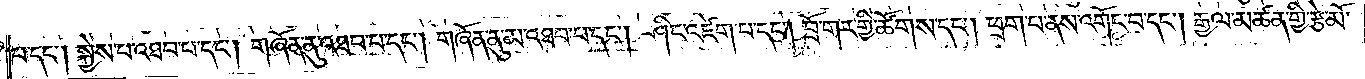པ་དང༌། སྐྱེས་པ་འཐབ་པ་དང༌། གཞོན་ནུ་འཐབ་པ་དང༌། གཞོན་ནུ་མ་འཐབ་པ་དང༌། ཤིང་འཛེག་པ་དང༌། བྲོ་གར་གྱི་ཚོགས་དང༌། ཕྲག་པ་ནས་འགོང་བ་དང༌། རྒྱལ་མཚན་གྱི་རྩེ་མོ་
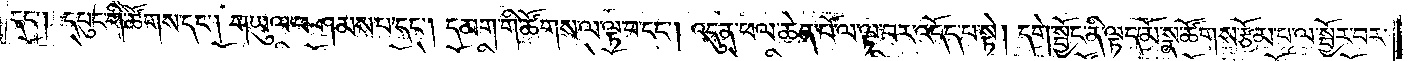དང༌། དཔུང་གི་ཚོགས་དང༌། གཡུལ་བཤམས་པ་དང༌། དམག་གི་ཚོགས་ལ་ལྟ་བ་དང༌། འདུན་ཕལ་ཆེན་པོ་ལ་ལྟ་བར་འདོད་པ་སྟེ། དགེ་སྦྱོང་ནི་ལྟད་མོ་སྣ་ཚོགས་རྩོམ་པ་ལ་སྦྱོར་བར་
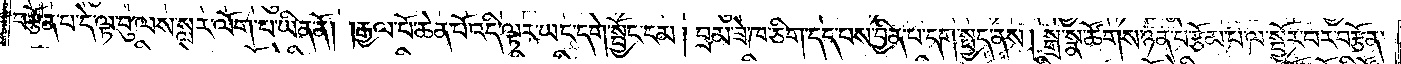བརྩོན་པ་དེ་ལྟ་བུ་ལས་སླར་ལོག་པ་ཡིན་ནོ། །རྒྱལ་པོ་ཆེན་པོ་འདི་ལྟར་ཡང་དགེ་སྦྱོང་ངམ། བྲམ་ཟེ་ཁ་ཅིག་དད་པས་བྱིན་པ་དག་སྤྱད་ནས། སྒྲ་སྣ་ཚོགས་ཉན་པ་རྩོམ་པ་ལ་སྦྱོར་བར་བརྩོན་
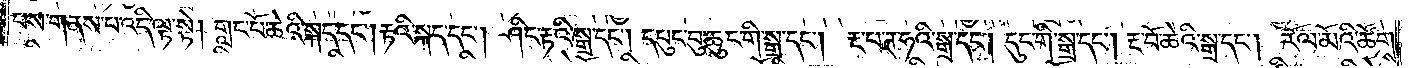པས་གནས་པ་འདི་ལྟ་སྟེ། གླང་པོ་ཆེའི་སྐད་དང༌། རྟའི་སྐད་དང༌། ཤིང་རྟའི་སྒྲ་དང༌། དཔུང་བུ་ཆུང་གི་སྒྲ་དང༌། རྔ་པ་ཊ་ཧའི་སྒྲ་དང༌། དུང་གི་སྒྲ་དང༌། རྔ་བོ་ཆེའི་སྒྲ་དང༌། རོལ་མོའི་ཚོགས་
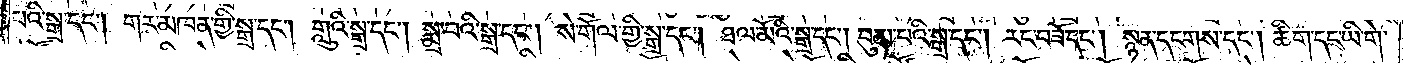པའི་སྒྲ་དང༌། གར་མཁན་གྱི་སྒྲ་དང༌། གླུའི་སྒྲ་དང༌། སྨྲ་བའི་སྒྲ་དང༌། སེ་གོལ་གྱི་སྒྲ་དང༌། ཐལ་མོའི་སྒྲ་དང༌། བུམ་པའི་སྒྲ་དང༌། རང་བཟོ་དང༌། སྙན་དངགས་དང༌། ཚིག་དང་ཡི་གེ་
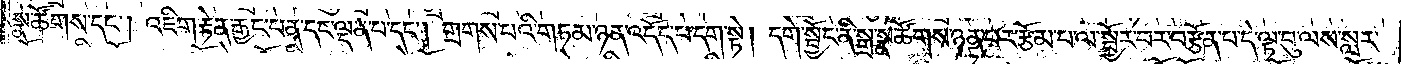སྣ་ཚོགས་དང༌། འཇིག་རྟེན་རྒྱང་པན་དང་ལྡན་པ་དང༌། གྲགས་པའི་གཏམ་ཉན་འདོད་པ་དག་སྟེ། དགེ་སྦྱོང་ནི་སྒྲ་སྣ་ཚོགས་ཉན་པར་རྩོམ་པ་ལ་སྦྱོར་བར་བརྩོན་པ་དེ་ལྟ་བུ་ལས་སླར་
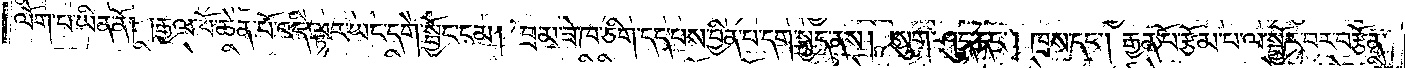ལོག་པ་ཡིན་ནོ། །རྒྱལ་པོ་ཆེན་པོ་འདི་ལྟར་ཡང་དགེ་སྦྱོང་ངམ། བྲམ་ཟེ་ཁ་ཅིག་དད་པས་བྱིན་པ་དག་སྤྱད་ནས། ཨུག་ཤུད་དང༌། ཁྲས་དང༌། རྒྱན་པོ་རྩོམ་པ་ལ་སྦྱོར་བར་བརྩོན་
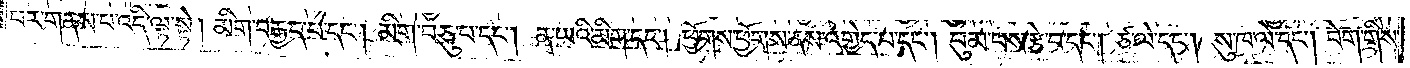པར་གནས་པ་འདི་ལྟ་སྟེ། མིག་བརྒྱད་པ་དང༌། མིག་བཅུ་པ་དང༌། ན་ཡའི་མིག་དང༌། ཕྱོགས་ཕྱོགས་ནས་འགྱེད་པ་དང༌། བུམ་པས་རྩེ་བ་དང༌། ཙ་ལེ་དང༌། སུ་ཁ་ལེ་དང༌། བེག་གིས་
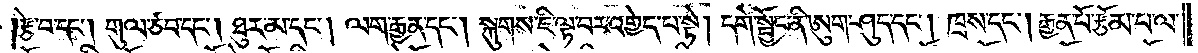རྩེ་བ་དང༌། གུལ་ཙ་བ་དང༌། ཐུར་མ་དང༌། ལག་རྒྱན་དང༌། སྐུགས་ཇི་ལྟ་བར་འགྱེད་པ་སྟེ། དགེ་སྦྱོང་ནི་ཨུག་ཤུད་དང༌། ཁྲས་དང༌། རྒྱན་པོ་རྩོམ་པ་ལ་
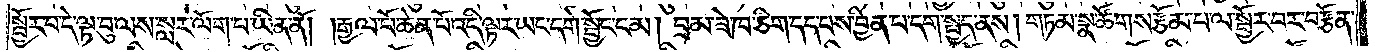སྦྱོར་བ་དེ་ལྟ་བུ་ལས་སླར་ལོག་པ་ཡིན་ནོ། །རྒྱལ་པོ་ཆེན་པོ་འདི་ལྟར་ཡང་དགེ་སྦྱོང་ངམ། བྲམ་ཟེ་ཁ་ཅིག་དད་པས་བྱིན་པ་དག་སྤྱད་ནས། གཏམ་སྣ་ཚོགས་རྩོམ་པ་ལ་སྦྱོར་བར་བརྩོན་
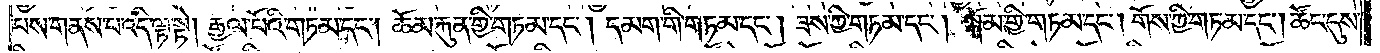པས་གནས་པ་འདི་ལྟ་སྟེ། རྒྱལ་པོའི་གཏམ་དང༌། ཆོམ་རྐུན་གྱི་གཏམ་དང༌། དམག་གི་གཏམ་དང༌། ཟས་ཀྱི་གཏམ་དང༌། སྐོམ་གྱི་གཏམ་དང༌། གོས་ཀྱི་གཏམ་དང༌། ཚོང་དུས་
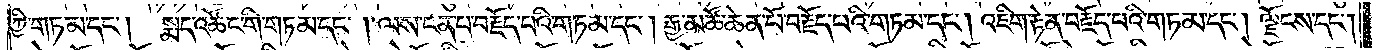ཀྱི་གཏམ་དང༌།  སྨད་འཚོང་གི་གཏམ་དང༌། ལས་ངན་པ་བརྗོད་པའི་གཏམ་དང༌། རྒྱ་མཚོ་ཆེན་པོ་བརྗོད་པའི་གཏམ་དང༌། འཇིག་རྟེན་བརྗོད་པའི་གཏམ་དང༌། ལྗོངས་དང༌།
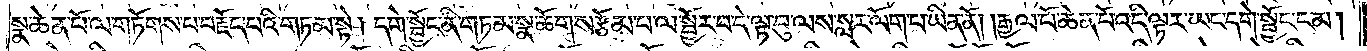སྣ་ཆེན་པོ་ལ་གཏོགས་པ་བརྗོད་པའི་གཏམ་སྟེ། དགེ་སྦྱོང་ནི་གཏམ་སྣ་ཚོགས་རྩོམ་པ་ལ་སྦྱོར་བ་དེ་ལྟ་བུ་ལས་སླར་ལོག་པ་ཡིན་ནོ། །རྒྱལ་པོ་ཆེན་པོ་འདི་ལྟར་ཡང་དགེ་སྦྱོང་ངམ།
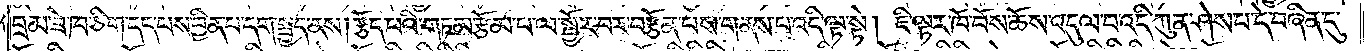བྲམ་ཟེ་ཁ་ཅིག་དད་པས་བྱིན་པ་དག་སྤྱད་ནས། རྩོད་པའི་གཏམ་རྩོམ་པ་ལ་སྦྱོར་བར་བརྩོན་པས་གནས་པ་འདི་ལྟ་སྟེ། ཇི་ལྟར་ཁོ་བོས་ཆོས་འདུལ་བ་འདི་ཀུན་ཤེས་པ་དེ་བཞིན་དུ་
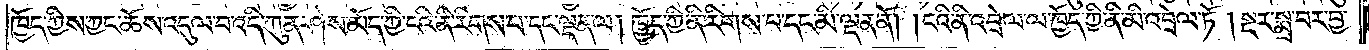ཁྱོད་ཀྱིས་ཀྱང་ཆོས་འདུལ་བ་འདི་ཀུན་ཤེས་མོད་ཀྱི་ངའི་ནི་རིགས་པ་དང་ལྡན་ལ། ཁྱོད་ཀྱི་ནི་རིགས་པ་དང་མི་ལྡན་ནོ། །ངའི་ནི་འབྲེལ་ལ་ཁྱོད་ཀྱི་ནི་མི་འབྲེལ་ཏོ། །སྔར་སྨྲ་བར་བྱ་
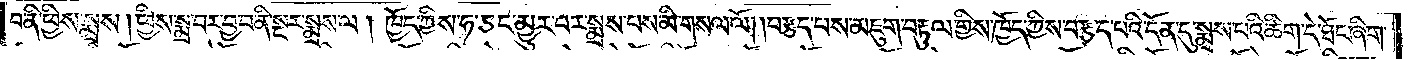བ་ནི་ཕྱིས་སྨྲས། ཕྱིས་སྨྲ་བར་བྱ་བ་ནི་སྔར་སྨྲས་ལ། ཁྱོད་ཀྱིས་ཧ་ཅང་མྱུར་བར་སྨྲས་པས་མི་གསལ་ལོ། །བརྩད་པས་མཇུག་བརྟུལ་གྱིས་ཁྱོད་ཀྱིས་བརྩད་པའི་དོན་དུ་སྨྲས་པའི་ཚིག་དེ་ཐོང་ཞིག་
